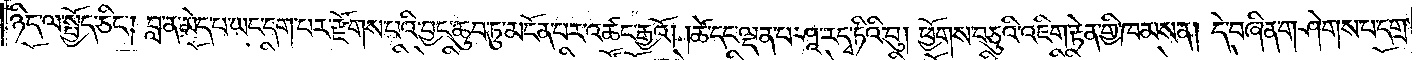ཉིད་ལ་སྤྱོད་ཅིང༌། བླ་ན་མེད་པ་ཡང་དག་པར་རྫོགས་པའི་བྱང་ཆུབ་ཏུ་མངོན་པར་འཚང་རྒྱའོ། །ཚེ་དང་ལྡན་པ་ཤཱ་ར་དྭ་ཏིའི་བུ། ཕྱོགས་བཅུའི་འཇིག་རྟེན་གྱི་ཁམས་ན། དེ་བཞིན་གཤེགས་པ་དགྲ་
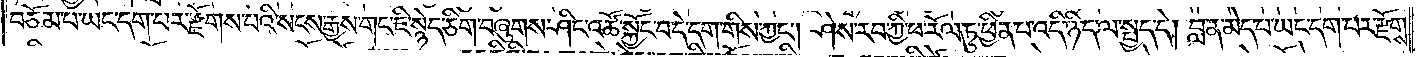བཅོམ་པ་ཡང་དག་པར་རྫོགས་པའི་སངས་རྒྱས་གང་ཇི་སྙེད་ཅིག་བཞུགས་ཤིང་འཚོ་སྐྱོང་བ་དེ་དག་གིས་ཀྱང༌། ཤེས་རབ་ཀྱི་ཕ་རོལ་ཏུ་ཕྱིན་པ་འདི་ཉིད་ལ་སྤྱད་དེ། བླ་ན་མེད་པ་ཡང་དག་པར་རྫོགས་
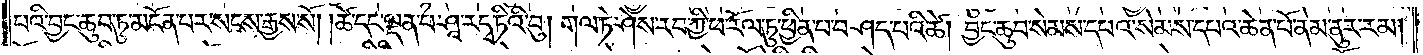པའི་བྱང་ཆུབ་ཏུ་མངོན་པར་སངས་རྒྱས་སོ། །ཚེ་དང་ལྡན་པ་ཤཱ་ར་དྭ་ཏིའི་བུ། གལ་ཏེ་ཤེས་རབ་ཀྱི་ཕ་རོལ་ཏུ་ཕྱིན་པ་བཤད་པའི་ཚེ། བྱང་ཆུབ་སེམས་དཔའ་སེམས་དཔའ་ཆེན་པོ་ནེམ་ནུར་རམ།
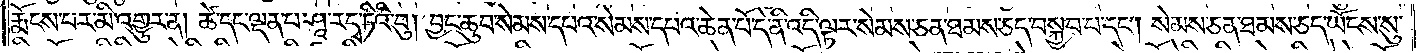རྨོངས་པར་མི་འགྱུར་ན། ཚེ་དང་ལྡན་པ་ཤཱ་ར་དྭ་ཏིའི་བུ། བྱང་ཆུབ་སེམས་དཔའ་སེམས་དཔའ་ཆེན་པོ་དེ་ནི་འདི་ལྟར་སེམས་ཅན་ཐམས་ཅད་བསྐྱབ་པ་དང༌། སེམས་ཅན་ཐམས་ཅད་ཡོངས་སུ་
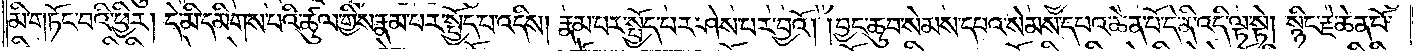མི་གཏོང་བའི་ཕྱིར། དེ་མི་དམིགས་པའི་ཚུལ་གྱིས་རྣམ་པར་སྤྱོད་པ་འདིས། རྣམ་པར་སྤྱོད་པར་ཤེས་པར་བྱའོ། །བྱང་ཆུབ་སེམས་དཔའ་སེམས་དཔའ་ཆེན་པོ་དེ་ནི་འདི་ལྟ་སྟེ། སྙིང་རྗེ་ཆེན་པོ་
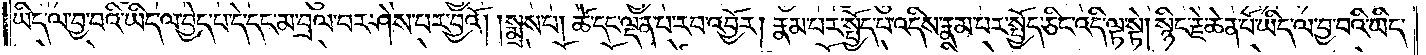ཡིད་ལ་བྱ་བའི་ཡིད་ལ་བྱེད་པ་དེ་དང་མ་བྲལ་བར་ཤེས་པར་བྱའོ། །སྨྲས་པ། ཚེ་དང་ལྡན་པ་རབ་འབྱོར། རྣམ་པར་སྤྱོད་པ་འདིས་རྣམ་པར་སྤྱོད་ཅིང་འདི་ལྟ་སྟེ། སྙིང་རྗེ་ཆེན་པོ་ཡིད་ལ་བྱ་བའི་ཡིད་
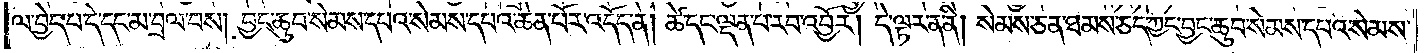ལ་བྱེད་པ་དེ་དང་མ་བྲལ་བས། བྱང་ཆུབ་སེམས་དཔའ་སེམས་དཔའ་ཆེན་པོར་འདོད་ན། ཚེ་དང་ལྡན་པ་རབ་འབྱོར། དེ་ལྟར་ན་ནི། སེམས་ཅན་ཐམས་ཅད་ཀྱང་བྱང་ཆུབ་སེམས་དཔའ་སེམས་
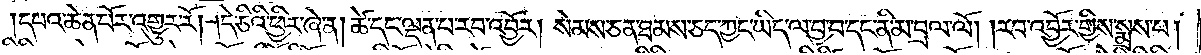དཔའ་ཆེན་པོར་འགྱུར་རོ། །དེ་ཅིའི་ཕྱིར་ཞེ་ན། ཚེ་དང་ལྡན་པ་རབ་འབྱོར། སེམས་ཅན་ཐམས་ཅད་ཀྱང་ཡིད་ལ་བྱ་བ་དང་ནི་མ་བྲལ་ལོ། །རབ་འབྱོར་གྱིས་སྨྲས་པ།
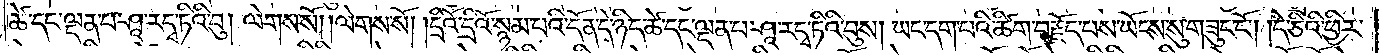ཚེ་དང་ལྡན་པ་ཤཱ་ར་དྭ་ཏིའི་བུ། ལེགས་སོ། ལེགས་སོ། །དྲིའོ་དྲིའོ་སྙམ་པའི་དོན་དེ་ཉིད་ཚེ་དང་ལྡན་པ་ཤཱ་ར་དྭ་ཏིའི་བུས། ཡང་དག་པའི་ཚིག་བརྗོད་པས་ཡོངས་སུ་གཟུང་ངོ༌། །དེ་ཅིའི་ཕྱིར་
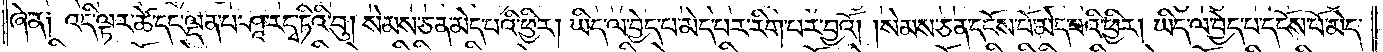ཞེ་ན༏ འདི་ལྟར་ཚེ་དང་ལྡན་པ་ཤཱ་ར་དྭ་ཏིའི་བུ། སེམས་ཅན་མེད་པའི་ཕྱིར། ཡིད་ལ་བྱེད་པ་མེད་པར་རིག་པར་བྱའོ། སེམས་ཅན་དངོས་པོ་མེད་པའི་ཕྱིར། ཡིད་ལ་བྱེད་པ་དངོས་པོ་མེད་
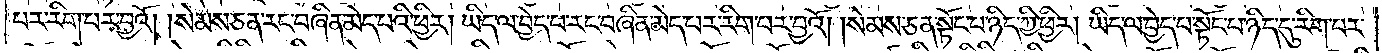པར་རིག་པར་བྱའོ། །སེམས་ཅན་རང་བཞིན་མེད་པའི་ཕྱིར། ཡིད་ལ་བྱེད་པ་རང་བཞིན་མེད་པར་རིག་པར་བྱའོ། །སེམས་ཅན་སྟོང་པ་ཉིད་ཀྱི་ཕྱིར། ཡིད་ལ་བྱེད་པ་སྟོང་པ་ཉིད་དུ་རིག་པར་
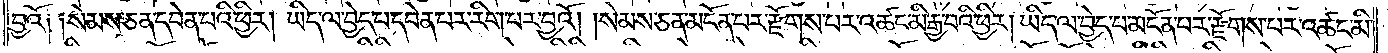བྱའོ༏ ༏སེམས་ཅན་དབེན་པའི་ཕྱིར། ཡིད་ལ་བྱེད་པ་དབེན་པར་རིག་པར་བྱའོ། །སེམས་ཅན་མངོན་པར་རྫོགས་པར་འཚང་མི་རྒྱ་བའི་ཕྱིར། ཡིད་ལ་བྱེད་པ་མངོན་པར་རྫོགས་པར་འཚང་མི་
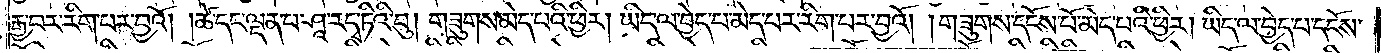རྒྱ་བར་རིག་པར་བྱའོ། །ཚེ་དང་ལྡན་པ་ཤཱ་ར་དྭ་ཏིའི་བུ། གཟུགས་མེད་པའི་ཕྱིར། ཡིད་ལ་བྱེད་པ་མེད་པར་རིག་པར་བྱའོ། །གཟུགས་དངོས་པོ་མེད་པའི་ཕྱིར། ཡིད་ལ་བྱེད་པ་དངོས་
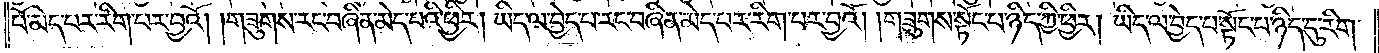པོ་མེད་པར་རིག་པར་བྱའོ། །གཟུགས་རང་བཞིན་མེད་པའི་ཕྱིར། ཡིད་ལ་བྱེད་པ་རང་བཞིན་མེད་པར་རིག་པར་བྱའོ། །གཟུགས་སྟོང་པ་ཉིད་ཀྱི་ཕྱིར། ཡིད་ལ་བྱེད་པ་སྟོང་པ་ཉིད་དུ་རིག་
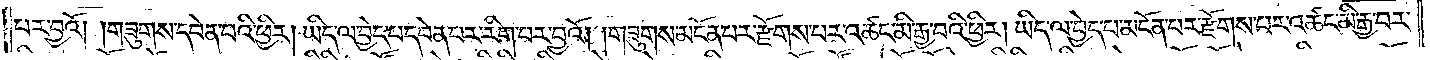པར་བྱའོ། །གཟུགས་དབེན་པའི་ཕྱིར། ཡིད་ལ་བྱེད་པ་དབེན་པར་རིག་པར་བྱའོ། །གཟུགས་མངོན་པར་རྫོགས་པར་འཚང་མི་རྒྱ་བའི་ཕྱིར། ཡིད་ལ་བྱེད་པ་མངོན་པར་རྫོགས་པར་འཚང་མི་རྒྱ་བར་
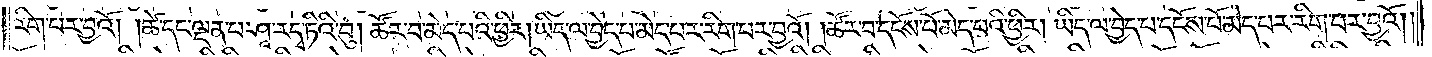རིག་པར་བྱའོ། །ཚེ་དང་ལྡན་པ་ཤཱ་ར་དྭ་ཏིའི་བུ། ཚོར་བ་མེད་པའི་ཕྱིར། ཡིད་ལ་བྱེད་པ་མེད་པར་རིག་པར་བྱའོ། །ཚོར་བ་དངོས་པོ་མེད་པའི་ཕྱིར། ཡིད་ལ་བྱེད་པ་དངོས་པོ་མེད་པར་རིག་པར་བྱའོ། །
